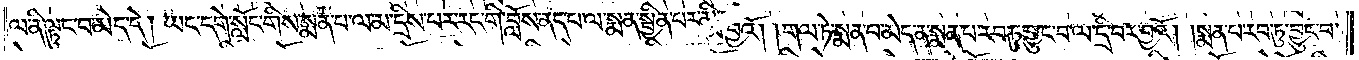ལ་ནི་ལྟུང་བ་མེད་དེ། ཡང་དགེ་སློང་གིས་སྨན་པ་ལ་མ་དྲིས་པར་རང་གི་བློས་ནད་པ་ལ་སྨན་སྦྱིན་པར་མི་བྱའོ། །གལ་ཏེ་སྨན་པ་མེད་ན་སྨན་པ་རབ་ཏུ་བྱུང་བ་ལ་དྲི་བར་བྱའོ། །སྨན་པ་རབ་ཏུ་བྱུང་བ་
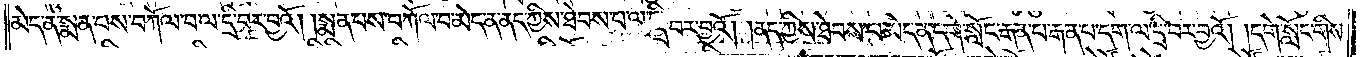མེད་ན་སྨན་པས་བཀོལ་བ་ལ་དྲི་བར་བྱའོ། །སྨན་པས་བཀོལ་བ་མེད་ན་ནད་ཀྱིས་ཐེབས་པ་ལ་དྲི་བར་བྱའོ། །ནད་ཀྱིས་ཐེབས་པ་མེད་ན་དགེ་སློང་རྒན་པ་རྒན་པ་དག་ལ་དྲི་བར་བྱའོ། །དགེ་སློང་གིས་
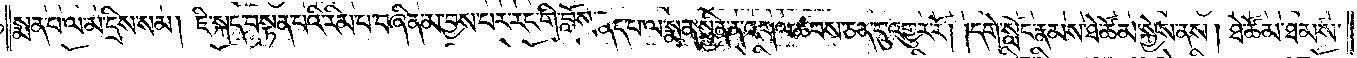སྨན་པ་ལ་མ་དྲིས་སམ། ཇི་སྐད་བསྟན་པའི་རིམ་བ་བཞིན་མ་བྱས་པར་རང་གི་བློས་ནད་པ་ལ་སྨན་སྦྱིན་ན་འགལ་ཚབས་ཅན་དུ་འགྱུར་རོ། །དགེ་སློང་རྣམས་ཐེ་ཚོམ་སྐྱེས་ནས། ཐེ་ཚོམ་ཐམས་
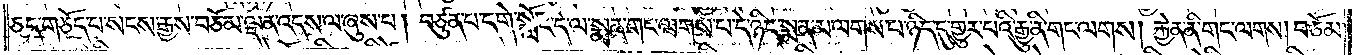ཅད་གཅོད་པ་སངས་རྒྱས་བཅོམ་ལྡན་འདས་ལ་ཞུས་པ། བཙུན་པ་དགེ་སློང་དེ་ལ་སྨན་གང་ལགས་པ་དེ་ཉིད་སྨན་མ་ལགས་པ་ཉིད་དུ་གྱུར་པའི་རྒྱུ་ནི་གང་ལགས། རྐྱེན་ནི་གང་ལགས། བཅོམ་
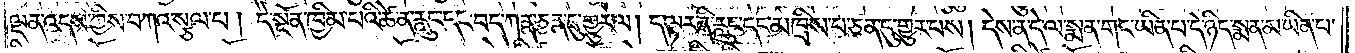ལྡན་འདས་ཀྱིས་བཀའ་སྩལ་པ། དེ་སྔོན་ཁྱིམ་པའི་ཚེ་ན་རླུང་དང་བད་ཀན་ཅན་དུ་གྱུར་ལ། ད་ལྟར་ནི་རླུང་དང་མཁྲིས་པ་ཅན་དུ་གྱུར་པས། དེས་ན་དེ་ལ་སྨན་གང་ཡིན་པ་དེ་ཉིད་སྨན་མ་ཡིན་པ་
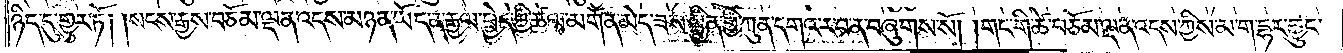ཉིད་དུ་གྱུར་ཏོ༑ །སངས་རྒྱས་བཅོམ་ལྡན་འདས་མཉན་ཡོད་ན་རྒྱལ་བྱེད་ཀྱི་ཚལ་མགོན་མེད་ཟས་སྦྱིན་གྱི་ཀུན་དགའ་ར་བ་ན་བཞུགས་སོ། །གང་གི་ཚེ་བཅོམ་ལྡན་འདས་ཀྱིས་མ་ག་དྷར་བྱུང་
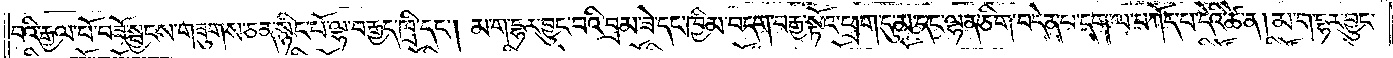བའི་རྒྱལ་པོ་བཟོ་སྦྱངས་གཟུགས་ཅན་སྙིང་པོ་ལྷ་བརྒྱད་ཁྲི་དང༌། མ་ག་དྷར་བྱུང་བའི་བྲམ་ཟེ་དང་ཁྱིམ་བདག་བརྒྱ་སྟོང་ཕྲག་དུ་མ་དང་ལྷན་ཅིག་བདེན་པ་དག་ལ་བཀོད་པ་དེའི་ཚེ་ན། མ་ག་དྷར་བྱུང་
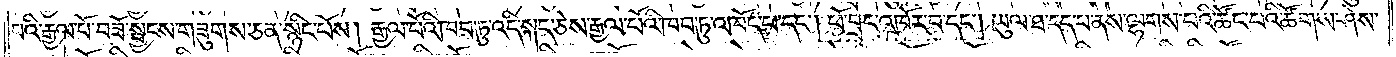བའི་རྒྱལ་པོ་བཟོ་སྦྱངས་གཟུགས་ཅན་སྙིང་པོས། རྒྱལ་པོའི་ཁབ་ཏུ་འདི་སྐད་ཅེས་རྒྱལ་པོའི་ཁབ་ཏུ་འཁོད་པ་དང༌། ཕོ་བྲང་འཁོར་བ་དང༌། ཡུལ་ཐ་དད་པ་ནས་ལྷགས་པའི་ཚོང་བའི་ཚོགས་ཤེས་
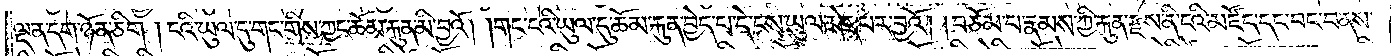ལྡན་དག་ཉོན་ཅིག །ངའི་ཡུལ་དུ་གང་གིས་ཀྱང་ཆོམ་རྐུན་མི་བྱའོ། །གང་ངའི་ཡུལ་དུ་ཆོམ་རྐུན་བྱེད་པ་དེ་ངས་ཡུལ་མེད་པར་བྱའོ། །བཅོམ་པ་རྣམས་ཀྱི་རྐུན་རྫས་ནི་ངའི་མཛོད་དང་བང་བ་ནས་
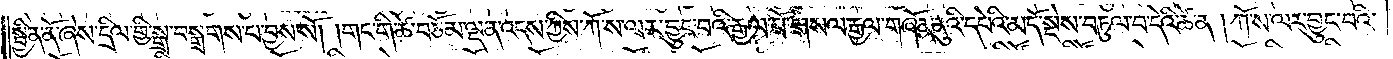སྦྱིན་ནོ་ཞེས་དྲིལ་གྱི་སྒྲ་བསྒྲགས་པ་བྱས་སོ། །གང་གི་ཚེ་བཅོམ་ལྡན་འདས་ཀྱིས་ཀོ་ས་ལར་བྱུང་བའི་རྒྱལ་པོ་གསལ་རྒྱལ་གཞོན་ནུའི་དཔེའི་མདོ་སྡེས་བཏུལ་བ་དེའི་ཚེ་ན། ཀོ་ས་ལར་བྱུང་བའི་
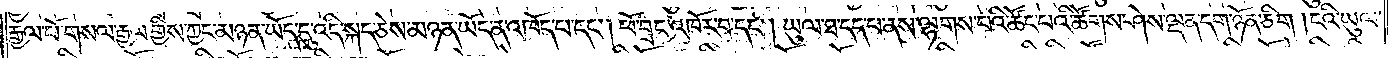རྒྱལ་པོ་གསལ་རྒྱལ་གྱིས་ཀྱང་མཉན་ཡོད་དུ་འདི་སྐད་ཅེས་མཉན་ཡོད་ན་འཁོད་པ་དང༌། ཕོ་བྲང་འཁོར་བ་དང༌། ཡུལ་ཐ་དད་པ་ནས་ལྷགས་པའི་ཚོང་པའི་ཚོགས་ཤེས་ལྡན་དག་ཉོན་ཅིག །ངའི་ཡུལ་
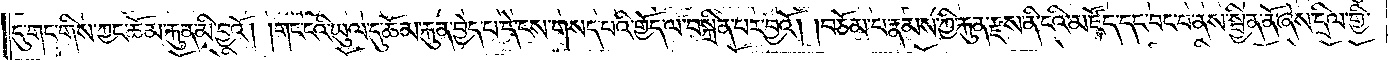དུ་གང་གིས་ཀྱང་ཆོམ་རྐུན་མི་བྱའོ། །གང་ངའི་ཡུལ་དུ་ཆོམ་རྐུན་བྱེད་པ་དེས་ངས་གསད་པའི་གྱོད་ལ་བསྐྲིན་པར་བྱའོ། །བཅོམ་པ་རྣམས་ཀྱི་རྐུན་རྫས་ནི་ངའི་མཛོད་དང་བང་བ་ནས་སྦྱིན་ནོ་ཞེས་དྲིལ་གྱི་
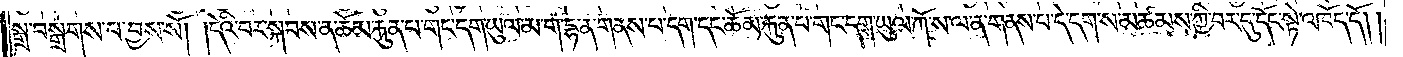སྒྲ་བསྒྲགས་པ་བྱས་སོ། །དེའི་བར་སྐབས་ན་ཆོམ་རྐུན་པ་གང་དག་ཡུལ་མ་ག་དྷ་ན་གནས་པ་དག་དང་ཆོམ་རྐུན་པ་གང་དག་ཡུལ་གོ་ས་ལ་ན་གནས་པ་དེ་དག་ས་མཚམས་ཀྱི་བར་དུ་དོང་སྟེ་འཁོད་དོ༎
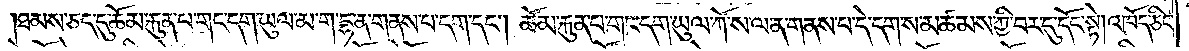ཐམས་ཅད་དུ་ཆོམ་རྐུན་པ་གང་དག་ཡུལ་མ་ག་དྷ་ན་གནས་པ་དག་དང༌། ཆོམ་རྐུན་པ་གང་དག་ཡུལ་ཀོ་ས་ལ་ན་གནས་པ་དེ་དག་ས་མཚམས་ཀྱི་བར་དུ་དོང་སྟེ། འཁོད་ཅིང
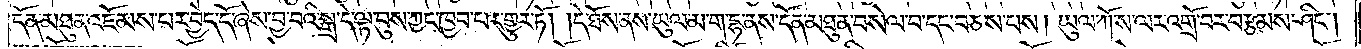དོན་མཐུན་འཇོམས་པར་བྱེད་དོ་ཞེས་བྱ་བའི་སྒྲ་དེ་ལྟ་བུས་ཀྱང་ཁྱབ་པར་གྱུར་ཏོ། །དེ་ཐོས་ནས་ཡུལ་མ་ག་དྷ་ནས་དོན་མཐུན་བསེལ་བ་དང་བཅས་པས། ཡུལ་ཀོ་ས་ལར་འགྲོ་བར་བརྩམས་ཤིང༌།
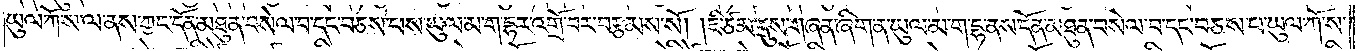ཡུལ་ཀོ་ས་ལ་ནས་ཀྱང་དོན་མཐུན་བསེལ་བ་དང་བཅས་པས་ཡུལ་མ་ག་དྷར་འགྲོ་བར་བརྩམས་སོ། །ཇི་ཙམ་དུས་གཞན་ཞིག་ན་ཡུལ་མ་ག་དྷ་ནས་དོན་མཐུན་བསེལ་བ་དང་བཅས་པ་ཡུལ་ཀོ་ས་
